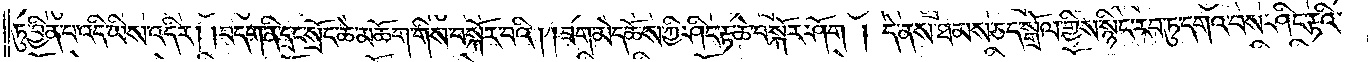ཏུ་བྱིན་པ་འདི་ཡིས་འདིར། །བདག་ནི་དྲང་སྲོང་ཆེ་མཆོག་གིས་བསྐོར་བའི། །ཟག་མེད་ཆོས་ཀྱི་ཤིང་རྟ་ཆེ་བསྐོར་ཤོག །དེ་ནས་ཐམས་ཅད་སྒྲོལ་གྱིས་སྙིང་རབ་ཏུ་དགའ་བས་ཤིང་རྟའི་
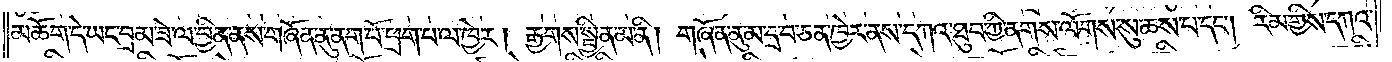མཆོག་དེ་ཡང་བྲམ་ཟེ་ལ་བྱིན་ནས་གཞོན་ནུ་ནག་པོ་ཕྲག་པ་ལ་ཁྱེར། རྒྱགས་སྦྱིན་མ་ནི། གཞོན་ནུ་མ་དྲ་བ་ཅན་ཁྱེར་ནས་དཀའ་ཐུབ་ཀྱི་ནགས་ལོགས་སུ་ཆས་པ་དང༌། རིམ་གྱིས་དཀའ་
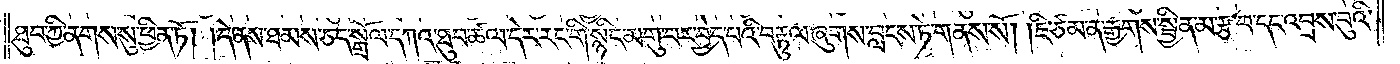ཐུབ་ཀྱི་ནགས་སུ་ཕྱིན་ཏོ། །དེ་ནས་ཐམས་ཅད་སྒྲོལ་དཀའ་ཐུབ་ཚལ་དེར་རང་གི་སྙིང་མགུ་བར་བྱེད་པའི་བརྟུལ་ཞུགས་བླངས་ཏེ་གནས་སོ། །ཇི་ཙམ་ན་རྒྱགས་སྦྱིན་མ་རྩ་བ་དང་འབྲས་བུའི་
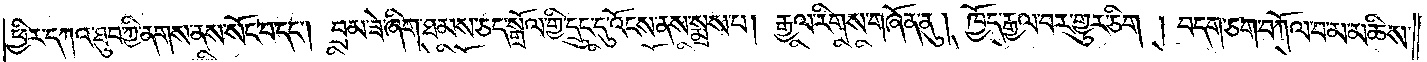ཕྱིར་དཀའ་ཐུབ་ཀྱི་ནགས་ནས་སོང་བ་དང༌། བྲམ་ཟེ་ཞིག་ཐམས་ཅད་སྒྲོལ་གྱི་དྲང་དུ་འོངས་ནས་སྨྲས་པ། རྒྱལ་རིགས་གཞོན་ནུ། ཁྱོད་རྒྱལ་བར་གྱུར་ཅིག །བདག་ཅག་བཀོལ་བ་མ་མཆིས་
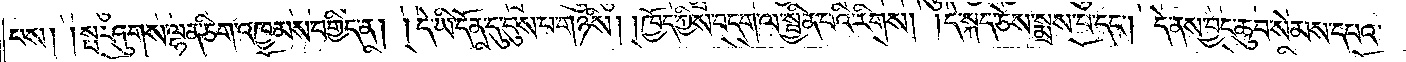པས། །སྤར་ཤུགས་ལྷན་ཅིག་འཁྱམས་བགྱིད་ན། །དེ་ཡི་དོན་དུ་བུས་པ་གཉིས། །ཁྱོད་ཀྱིས་བདག་ལ་སྦྱིན་པའི་རིགས། །དེ་སྐད་ཅེས་སྨྲས་པ་དང༌། དེ་ནས་བྱང་ཆུབ་སེམས་དཔའ་
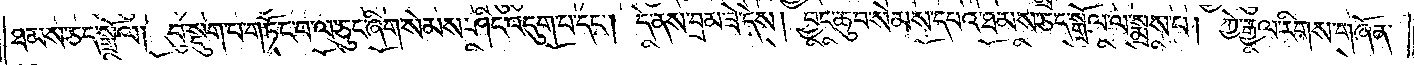ཐམས་ཅད་སྒྲོལ། བུ་སྡུག་པ་གཏོང་བ་ལ་ཆུང་ཞིག་སེམས་ཤིང་འདུག་པ་དང༌། དེ་ནས་བྲམ་ཟེ་དེས། བྱང་ཆུབ་སེམས་དཔའ་ཐམས་ཅད་སྒྲོལ་ལ་སྨྲས་པ། ཀྱེ་རྒྱལ་རིགས་གཞོན་
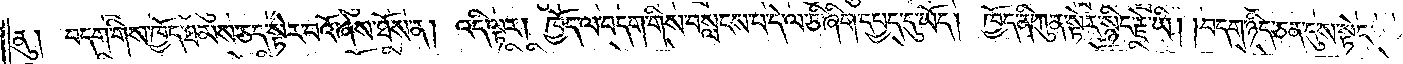ནུ། བདག་གིས་ཁྱོད་ཐམས་ཅད་སྟེར་བའོ་ཞེས་ཐོས་ན། འདི་ལྟར། ཁྱོད་ལ་བདག་གིས་བསླངས་པ་དེ་ལ་ཅི་ཞིག་དཔྱད་དུ་ཡོད། ཁྱོད་ནི་ཀུན་སྟེར་སྙིང་རྗེ་ཡི། །བདག་ཉིད་ཅན་དུ་ས་སྟེང་
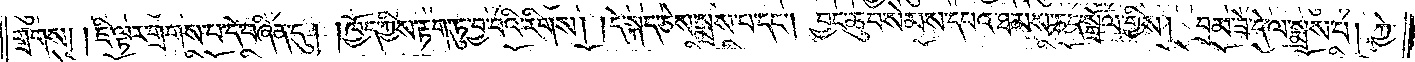གྲགས། །ཇི་ལྟར་གྲགས་པ་དེ་བཞིན་དུ། །ཁྱོད་ཀྱིས་རྟག་ཏུ་བྱ་བའི་རིགས། །དེ་སྐད་ཅེས་སྨྲས་པ་དང༌། བྱང་ཆུབ་སེམས་དཔའ་ཐམས་ཅད་སྒྲོལ་གྱིས། བྲམ་ཟེ་དེ་ལ་སྨྲས་པ། ཀྱེ་
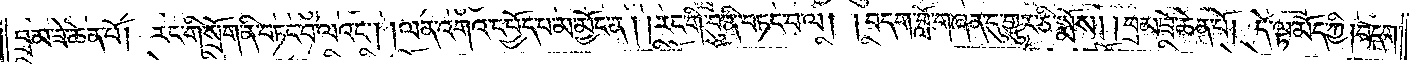བྲམ་ཟེ་ཆེན་པོ། རང་གི་སྲོག་ནི་བཏང་བ་ལའང༌། །ལན་འགའ་དཔྱོད་པ་མ་མྱོང་ན། །རང་གི་བུ་ནི་བཏང་བ་ལ། །བདག་བློ་གཞན་དུ་གྱུར་ཅི་སྨོས། །བྲམ་ཟེ་ཆེན་པོ། དེ་ལྟ་མོད་ཀྱི། བདག་
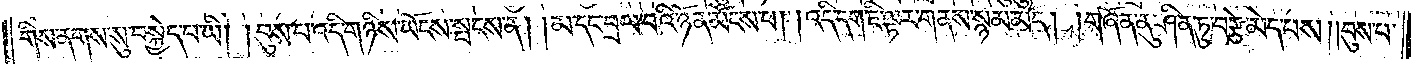གིས་ནགས་སུ་བསྐྱེད་པ་ཡི། །བུས་པ་འདི་གཉིས་ཡོངས་སྤངས་ན། །མ་དང་བྲལ་བའི་ཉོན་མོངས་པ། །འདི་དག་ཇི་ལྟར་གནས་སྙམ་མོད། །གཞོན་ནུ་ཤིན་ཏུ་བརྩེ་མེད་པས། །བུས་པ་
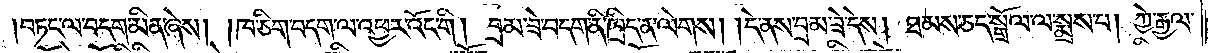བཏང་ལ་བདག་མིན་ཞེས། །ཁ་ཅིག་བདག་ལ་འཕྱར་འོང་གི །བྲམ་ཟེ་བདག་ནི་ཁྲིད་ན་ལེགས། །དེ་ནས་བྲམ་ཟེ་དེས། ཐམས་ཅད་སྒྲོལ་ལ་སྨྲས་པ། ཀྱེ་རྒྱལ་
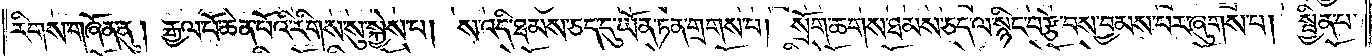རིགས་གཞོན་ནུ། རྒྱལ་པོ་ཆེན་པོའི་རིགས་སུ་སྐྱེས་པ། ས་འདི་ཐམས་ཅད་དུ་ཡོན་ཏན་གྲགས་པ། སྲོག་ཆགས་ཐམས་ཅད་ལ་སྙིང་བརྩེ་བས་བྱམས་པར་ཞུགས་པ། སྦྱིན་པ་
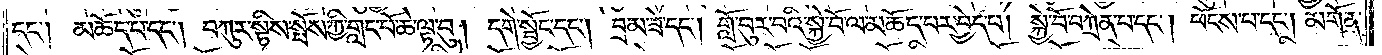དང༌། མཆོད་པ་དང༌། བཀུར་སྟིས་སྤོས་ཀྱི་གླང་པོ་ཆེ་ལྟ་བུ། དགེ་སྦྱོང་དང༌། བྲམ་ཟེ་དང༌། གློ་བུར་བའི་སྐྱེ་བོ་ལ་མཆོད་པར་བྱེད་པ། སྐྱེ་བོ་བཀྲེན་པ་དང༌། ཕོངས་པ་དང༌། མགོན་
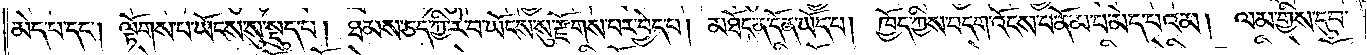མེད་པ་དང༌། ལྟོགས་པ་ཡོངས་སུ་སྡུད་པ། ཐམས་ཅད་ཀྱི་རེ་བ་ཡོངས་སུ་རྫོགས་པར་བྱེད་པ། མཐོང་ན་དོན་ཡོད་པ། ཁྱོད་ཀྱིས་བདག་འོངས་པ་ནོམ་པ་མེད་པའམ། ལམ་གྱིས་དུབ་
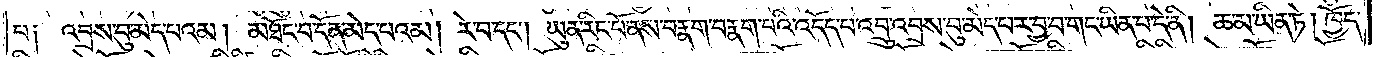པ༑ འབྲས་བུ་མེད་པའམ། མཐོང་བ་དོན་མེད་པའམ། རེ་བ་དང༌། ཡུན་རིང་པོ་ནས་བརྣག་བརྣག་པའི་འདོད་པ་འབྲུ་འབྲས་བུ་མེད་པར་བྱ་བ་གང་ཡིན་པ་དེ་ནི། ཆ་མ་ཡིན་ཏེ། ཁྱོད་
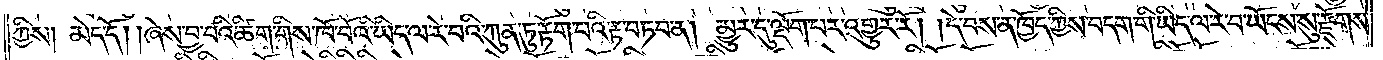ཀྱིས། མེད་དོ། །ཞེས་བྱ་བའི་ཚིག་གིས་ཁོ་བོའི་ཡིད་ལ་རེ་བའི་ཀུན་ཏུ་རྟོག་པའི་རྟ་བཏབ་ན། མྱུར་དུ་ལྡོག་པར་འགྱུར་རོ། །དེ་བས་ན་ཁྱོད་ཀྱིས་བདག་གི་ཡིད་ལ་རེ་བ་ཡོངས་སུ་རྫོགས་
